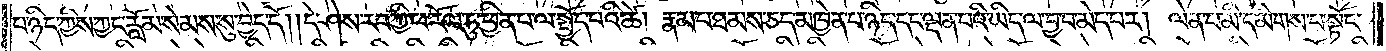པ་ཉིད་ཀྱིས་ཀྱང་རློམ་སེམས་སུ་བྱེད་དོ། །དེ་ཤེས་རབ་ཀྱི་ཕ་རོལ་ཏུ་ཕྱིན་པ་ལ་སྤྱོད་པའི་ཚེ། རྣམ་པ་ཐམས་ཅད་མཁྱེན་པ་ཉིད་དང་ལྡན་པའི་ཡིད་ལ་བྱ་བ་མེད་པར། ལེན་པ་མི་དམིགས་པ་སྟོང་
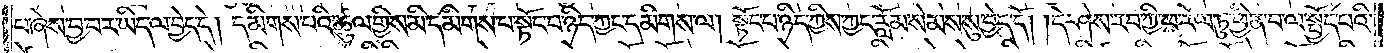པ་ཞེས་བྱ་བར་ཡིད་ལ་བྱེད་དེ། དམིགས་པའི་ཚུལ་གྱིས་མི་དམིགས་པ་སྟོང་པ་ཉིད་ཀྱང་དམིགས་ལ། སྟོང་པ་ཉིད་ཀྱིས་ཀྱང་རློམ་སེམས་སུ་བྱེད་དོ། །དེ་ཤེས་རབ་ཀྱི་ཕ་རོལ་ཏུ་ཕྱིན་པ་ལ་སྤྱོད་པའི་
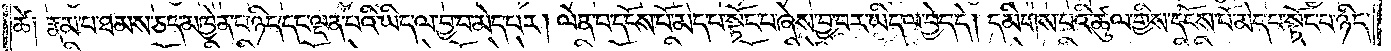ཚེ། རྣམ་པ་ཐམས་ཅད་མཁྱེན་པ་ཉིད་དང་ལྡན་པའི་ཡིད་ལ་བྱ་བ་མེད་པར། ལེན་པ་དངོས་པོ་མེད་པ་སྟེང་པ་ཞེས་བྱ་བར་ཡིད་ལ་བྱེད་དེ། དམིགས་པའི་ཚུལ་གྱིས་དངོས་པོ་མེད་པ་སྟོང་པ་ཉིད་
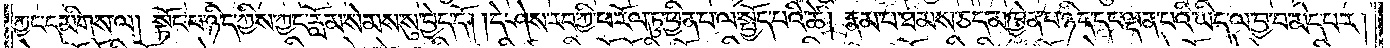ཀྱང་དམིགས་ལ། སྟོང་པ་ཉིད་ཀྱིས་ཀྱང་རློམ་སེམས་སུ་བྱེད་དོ། །དེ་ཤེས་རབ་ཀྱི་ཕ་རོལ་ཏུ་ཕྱིན་པ་ལ་སྤྱོད་པའི་ཚེ། རྣམ་པ་ཐམས་ཅད་མཁྱེན་པ་ཉིད་དང་ལྡན་པའི་ཡིད་ལ་བྱ་བ་མེད་པར།
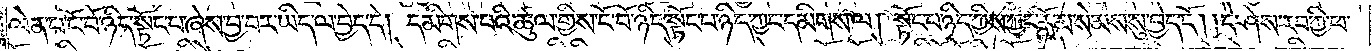ལེན་པ་ངོ་བོ་ཉིད་སྟོང་པ་ཞེས་བྱ་བར་ཡིད་ལ་བྱེད་དེ། དམིགས་པའི་ཚུལ་གྱིས་ངོ་བོ་ཉིད་སྟོང་པ་ཉིད་ཀྱང་དམིགས་ལ། སྟོང་པ་ཉིད་ཀྱིས་ཀྱང་རློམ་སེམས་སུ་བྱེད་དོ། །དེ་ཤེས་རབ་ཀྱི་ཕ་
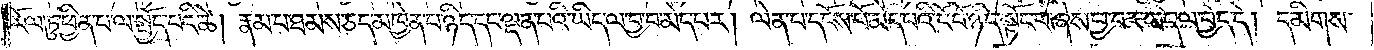རོལ་ཏུ་ཕྱིན་པ་ལ་སྤྱོད་པའི་ཚེ། རྣམ་པ་ཐམས་ཅད་མཁྱེན་པ་ཉིད་དང་ལྡན་པའི་ཡིད་ལ་བྱ་བ་མེད་པར། ལེན་པ་དངོས་པོ་མེད་པའི་ངོ་བོ་ཉིད་སྟོང་པ་ཞེས་བྱ་བར་ཡང་ལ་བྱེད་དེ། དམིགས་
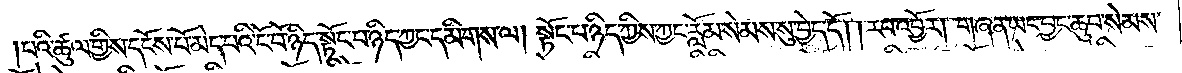པའི་ཚུལ་གྱིས་དངོས་པོ་མེད་པའི་ངོ་བོ་ཉིད་སྟོང་པ་ཉིད་ཀྱང་དམིགས་ལ། སྟོང་པ་ཉིད་ཀྱིས་ཀྱང་རློམ་སེམས་སུ་བྱེད་དོ། །རབ་འབྱོར། གཞན་ཡང་བྱང་ཆུབ་སེམས་
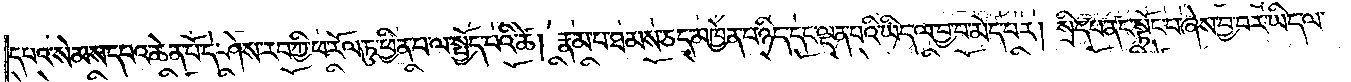དཔའ་སེམས་དཔའ་ཆེན་པོ་དེ་ཤེས་རབ་ཀྱི་ཕ་རོལ་ཏུ་ཕྱིན་པ་ལ་སྤྱོད་པའི་ཚེ། རྣམ་པ་ཐམས་ཅད་མཁྱེན་པ་ཉིད་དང་ལྡན་པའི་ཡིད་ལ་བྱ་བ་མེད་པར། སྲིད་པ་ནང་སྟོང་པ་ཞེས་བྱ་བར་ཡིད་ལ་
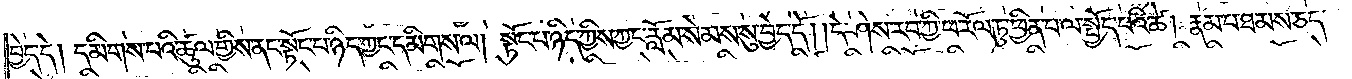བྱེད་དེ། དམིགས་པའི་ཚུལ་གྱིས་ནང་སྟོང་པ་ཉིད་ཀྱང་དམིགས་ལ། སྟོང་པ་ཉིད་ཀྱིས་ཀྱང་རློམ་སེམས་སུ་བྱེད་དོ། །དེ་ཤེས་རབ་ཀྱི་ཕ་རོལ་ཏུ་ཕྱིན་པ་ལ་སྤྱོད་པའི་ཚེ། རྣམ་པ་ཐམས་ཅད་
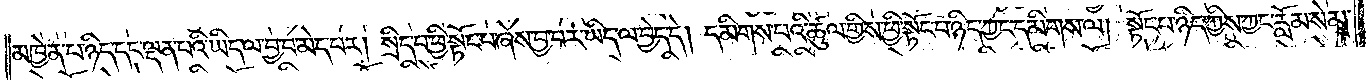མཁྱེན་པ་ཉིད་དང་ལྡན་པའི་ཡིད་ལ་བྱ་བ་མེད་པར། སྲིད་པ་ཕྱི་སྟོང་པ་ཞེས་བྱ་བར་ཡིད་ལ་བྱེད་དེ། དམིགས་པའི་ཚུལ་གྱིས་ཕྱི་སྟོང་པ་ཉིད་ཀྱང་དམིགས་ལ། སྟོང་པ་ཉིད་ཀྱིས་ཀྱང་རློམ་སེམས་
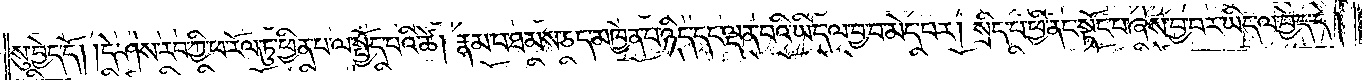སུ་བྱེད་དོ། །དེ་ཤེས་རབ་ཀྱི་ཕ་རོལ་ཏུ་ཕྱིན་པ་ལ་སྤྱོད་པའི་ཚེ། རྣམ་པ་ཐམས་ཅད་མཁྱེན་པ་ཉིད་དང་ལྡན་པའི་ཡིད་ལ་བྱ་བ་མེད་པར། སྲིད་པ་ཕྱི་ནང་སྟོང་པ་ཞེས་བྱ་བར་ཡིད་ལ་བྱེད་དེ།
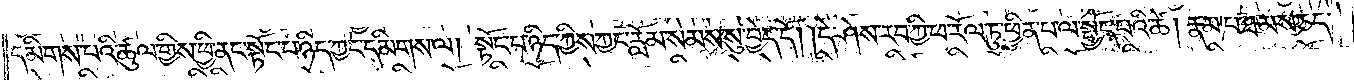དམིགས་པའི་ཚུལ་གྱིས་ཕྱི་ནང་སྟོང་པ་ཉིད་ཀྱང་དམིགས་ལ། སྟོང་པ་ཉིད་ཀྱིས་ཀྱང་རློམ་སེམས་སུ་བྱེད་དོ། །དེ་ཤེས་རབ་ཀྱི་ཕ་རོལ་ཏུ་ཕྱིན་པ་ལ་སྤྱོད་པའི་ཚེ། རྣམ་པ་ཐམས་ཅད་
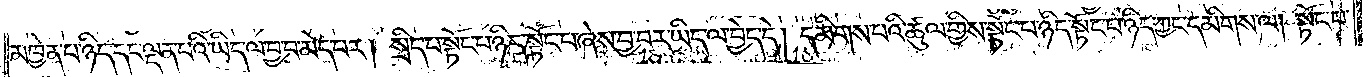མཁྱེན་པ་ཉིད་དང་ལྡན་པའི་ཡིད་ལ་བྱ་བ་མེད་པར། སྲིད་པ་སྟོང་པ་ཉིད་སྟོང་བ་ཞེས་བྱ་བར་ཡིད་ལ་བྱེད་དོ། དམིགས་པའི་ཚུལ་གྱིས་སྟོང་པ་ཉིད་སྟོང་པ་ཉིད་ཀྱང་དམིགས་ལ། སྟོང་པ་
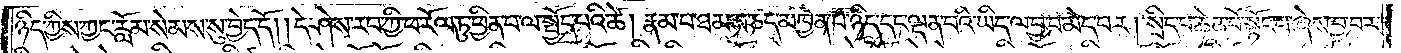ཉིད་ཀྱིས་ཀྱང་རློམ་སེམས་སུ་བྱེད་དོ། །དེ་ཤེས་རབ་ཀྱི་ཕ་རོལ་ཏུ་ཕྱིན་པ་ལ་སྤྱོད་པའི་ཚེ། རྣམ་པ་ཐམས་ཅད་མཁྱེན་པ་ཉིད་དང་ལྡན་པའི་ཡིད་ལ་བྱ་བ་མེད་པར། སྲིད་པ་ཆེན་པོ་སྟོང་པ་ཞེས་བྱ་བར་
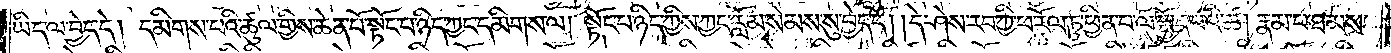ཡིད་ལ་བྱེད་དེ། དམིགས་པའི་ཚུལ་གྱིས་ཆེན་པོ་སྟོང་པ་ཉིད་ཀྱང་དམིགས་ལ། སྟོང་པ་ཉིད་ཀྱིས་ཀྱང་རློམ་སེམས་སུ་བྱེད་དོ། །དེ་ཤེས་རབ་ཀྱི་ཕ་རོལ་ཏུ་ཕྱིན་པ་ལ་སྤྱོད་པའི་ཚེ། རྣམ་པ་ཐམས་
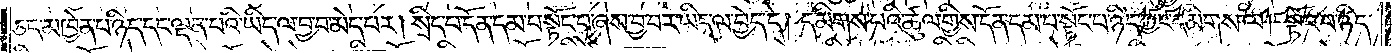ཅད་མཁྱེན་པ་ཉིད་དང་ལྡན་པའི་ཡིད་ལ་བྱ་བ་མེད་པར། སྲིད་པ་དོན་དམ་པ་སྟོང་པ་ཞེས་བྱ་བར་ཡིད་ལ་བྱེད་དེ། དམིགས་པའི་ཚུལ་གྱིས་དོན་དམ་པ་སྟོང་པ་ཉིད་ཀྱང་དམིགས་ལ། སྟོང་པ་ཉིད་
